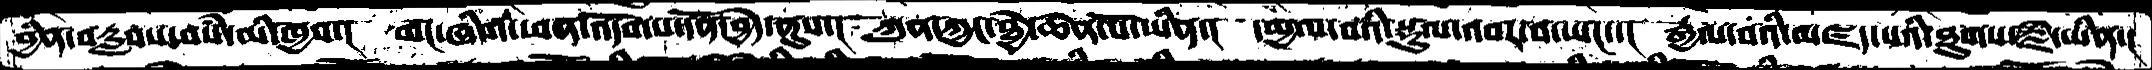བྱིན་བརླབས་བསཾ་མི་ཁྱབ་།  གང་ཞིག་ཕན་འདོགས་དོན་བྱེད་ནུས་།  ཀུན་ཀྱང་ཐྱེ་ཆེན་པོ་ཡིན་།	དམྱལ་བའི་སྡུལ་འབར་བ་ཡང་་།  རྒྱལ་བའི་མཛད་པའི་ཐུགས་རྗེ་ཡིན་།
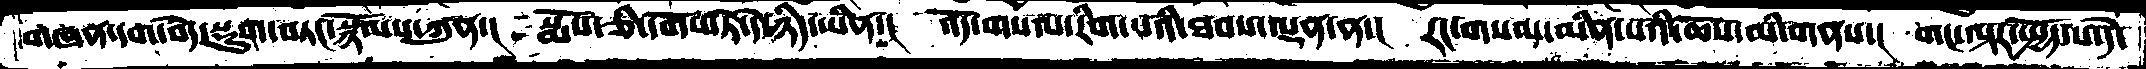གཞན་དག་བདེ་སྡུག་བཏང་སྙོམས་ཀུན་།  སྨོས་ཅི་དགོས་ཏེ་དེ་ཉིད་ཡིན་།  འོད་གསལ་རིག་པའི་ཐབས་ལྡན་ན་།  རང་གསལ་མིན་པའི་ཆོས་མི་གནས་།  གང་ལྟར་སྤྱོད་པ་དེ་
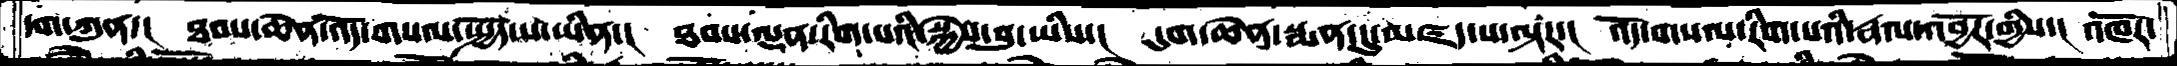དག་ཀུན་།  ཐབས་ཆེན་འོད་གསལ་སྤྱོད་པ་ཡིན་།  ཐབས་ལྡན་རིག་པའི་སྐྱེས་བུ་ཡིས་།  དུག་ཆེན་སྨན་དུ་མཛད་པ་ལྟརང་།  འོད་གསལ་རིག་པའི་རྣལ་འབྱོར་གྱིས་།  འཁོར་
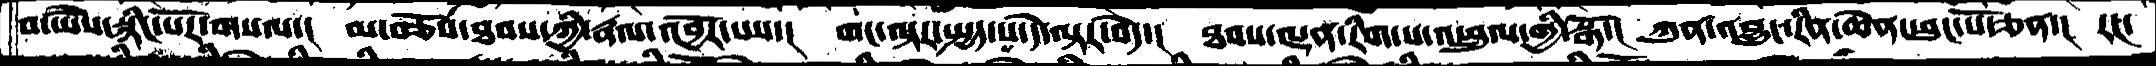བ་ཡཻས་སྙིང་པོར་གསལ་།  མ་བཅོས་ཐབས་ཀྱི་རྣལ་འབྱོར་པས་།  གང་ལྟར་སྤྱད་པ་དེ་ལྟར་བདེ་།  ཐབས་ལྡན་རིག་པ་འཕྲུལ་གྱི་སྒོ་།  ཀུན་འབྱུང་རིན་ཆེན་ཕུང་པོ་ཅན་།  རང་
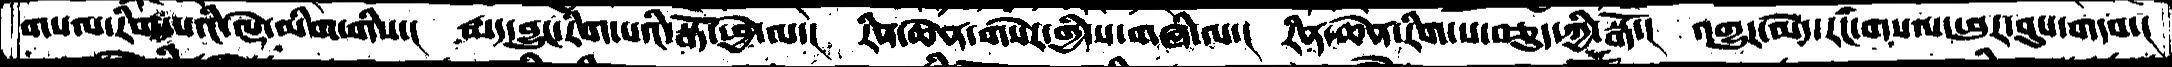གསལ་རིག་པའི་ལྡེ་མིག་གིས་།  རྨད་བྱུང་རིག་སའི་སྒོ་ཕྱེ་ལ་།  རིན་ཆེན་གསེར་གྱི་ས་གཞི་ལ་།  རིན་ཆེན་རིག་པ་བཅུད་ཀྱི་སྒོ་།  འགྱུར་མེད་རང་གསལ་ཕུར་བུས་གདབ་།
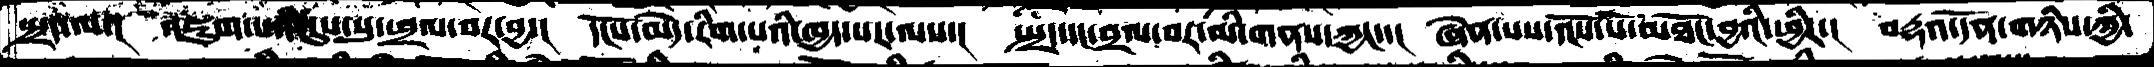སྤྲད་ལ་།  འཇུག་པའི་དུས་སུ་ཕྲལ་བར་བྱ་།  དངོས་མེད་རིག་པའི་ཁྱད་པར་ལས་།  སྤྲད་དང་བྲལ་བར་མི་གནས་ཀྱང་་།  ཞེན་པས་དངོས་པོ་མཐོང་བྱའི་ཕྱིར་།  བརྡའ་དོན་གཉིས་ཀྱི་
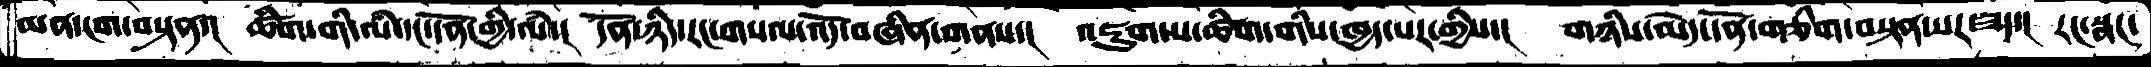མན་ངག་བསྟན་།  ཚིག་གི་ལཾ་དང་དོན་གྱི་ལཾ་།  དོན་ཉིད་རང་གསལ་འོད་བཞིན་གནས་།  འཇུག་པ་ཚིག་གིས་ཁྱད་པར་གྱིས་།  གཉིས་མེད་དོན་གཅིག་བསྟན་པར་ཟད་།  རང་སྣང་
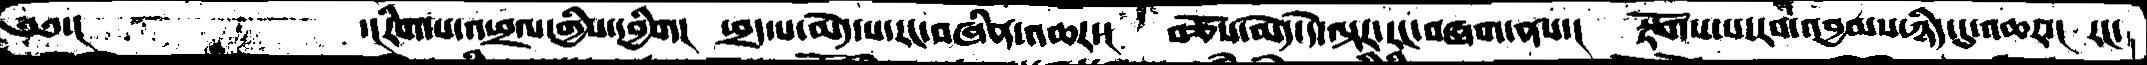༄༅་།            ་།རིག་པ་འཕྲལ་གྱིས་དབྱིག།  ཕྲད་པ་མེད་པ་རང་བཞིན་འཆར་།  བཅོས་མེད་དེ་ལྟར་རང་བཞག་ནས་།   རྟོགས་པ་རབ་འབྱམས་ཉིད་དུ་འཆར་།  རང་
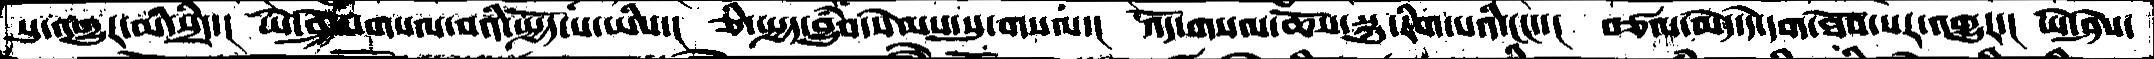སུ་འགྱུར་མི་སྲིད་།  ཡེ་ཤེས་གསལ་བའི་སྤྱོད་པ་ཡིས་།  ཅི་སྤྱད་བྱུཾབ་སེམས་སུ་གསལ་།  འོད་གསལ་ཆོས་སྐུ་རིག་པའི་ངང་།  བཙལ་མེད་དེ་དག་ཐོབ་པར་འགྱུར་།  ཡེ་ཤེས་
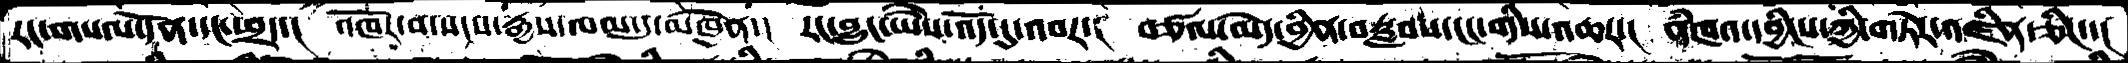རང་གསལ་དོན་དང་ཕྲད་།  འཁོར་བ་སངས་རྒྱས་ལམ་དུ་མཁྱེན་།  རང་བྱུང་ཡཻས་འདོ་དུ་འབར་།  བཙལ་མེད་བྱིན་བརླབས་ངང་གིས་འཆར་།  ནཾཁའ་དབྱིངས་ཀྱི་གཏེར་འཛིན་ཅིང་་།
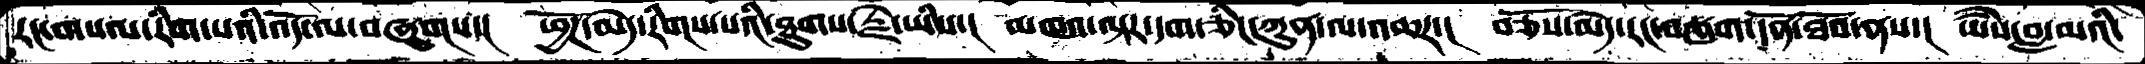རང་གསལ་་རིག་པའི་འདོ་ལ་བཞུགས་།  ཕྱོཌ་མེད་རིགས་པའི་ཐུགས་རྗེ་ཡིས་།  མཁའ་ལྟར་དག་ཅིང་ཀུན་ལ་འཆར་།  བཅོས་མེད་རང་བཙུག་དོན་ཐོབ་ནས་།  ཡཻས་བླ་མའི་
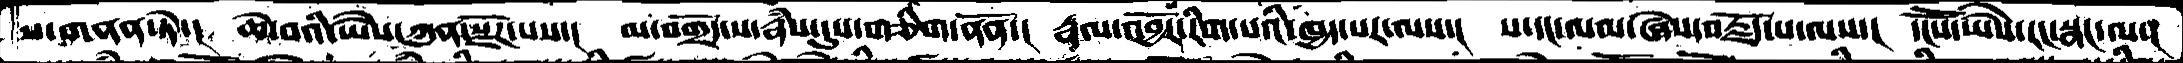ས་གནན་ཏེ་།  ཆེ་བའི་ཡཻས་ཀུན་སྫོཌ་པས་།  མ་བགྲོད་ས་རྣཾས་དུས་གཅིག་ནོན་།  རྣལ་འབྱོར་རིག་པའི་ཁྱད་པར་ལས་།  ས་དང་ལམ་ཞེས་བརྗོད་པ་ལས་།  དངཽས་ཡཻས་རང་སྣང་ལ་།
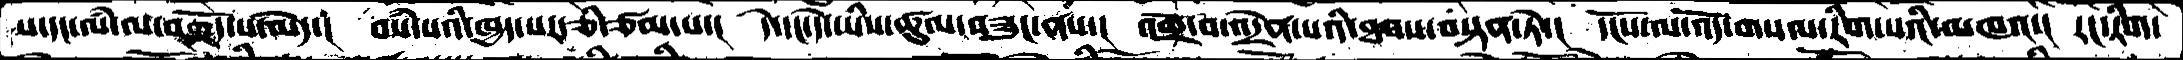ས་དང་ལཾ་ལ་བགྲོད་པ་མེད་།  བསཾ་པའི་ཁྱད་པར་ཅི་ཙམ་པ་།  དེ་དང་དེ་ཡིས་ཚུལ་བཟུང་ནས་།  འགྲོ་བ་འདྲེན་པའི་ཐབས་བསྟན་ཏེ་།  དངོས་ལ་འོད་གསལ་རིག་པའི་མཁའ་།  རང་རིག་
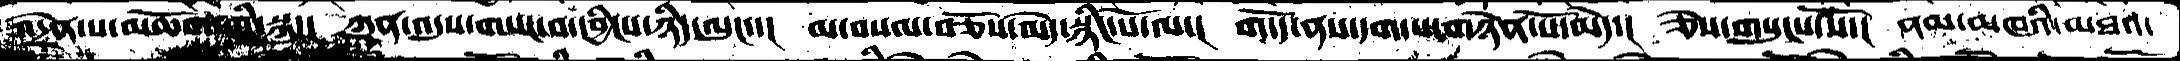འདྲེན་པ་མཆོག་གི་སྐུ་།  ཀུན་འདུས་གསང་བ་དབྱིངས་ཉིད་ལུང་།  མ་བསལ་བཅོས་མེད་སྙིང་པོ་ལ་།  གདོད་ནས་དག་པར་གཉེན་པོ་མེད་།  ཅེས་གསུངས་སོ་།  ནམ་མཁའི་མཐའ་
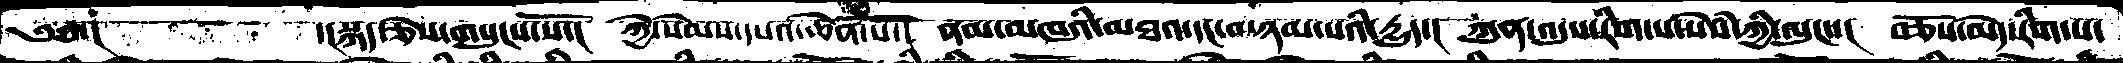༄༅་།             ་།སྐད་ཅེས་གསུངས་སོ་།  ཀྱེ་སེམས་དཔའ་ཆེན་པོ་།  ནམ་མཁའི་མཐའ་དང་མཉམ་པའི་དྱུད་།  ཀུན་འདུས་རིག་པ་སེསཾ་ཀྱི་ལུང་་།  བཅོས་མེད་རིག་པ་
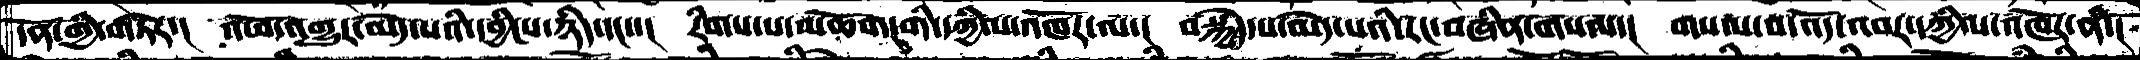དོན་གྱི་གཏེར་།  འཕོ་འགྱུར་མེད་པའི་དབྱིངས་ཉིད་དང་་།  རིགས་པ་མཆོག་གི་དཀྱིལ་འཁོར་ལ་།  བསྐྱེད་པ་མེད་པའི་རང་བཞིན་གསལ་།   གསལ་བ་འོད་འབར་དཀྱིལ་འཁོར་ནི་།
